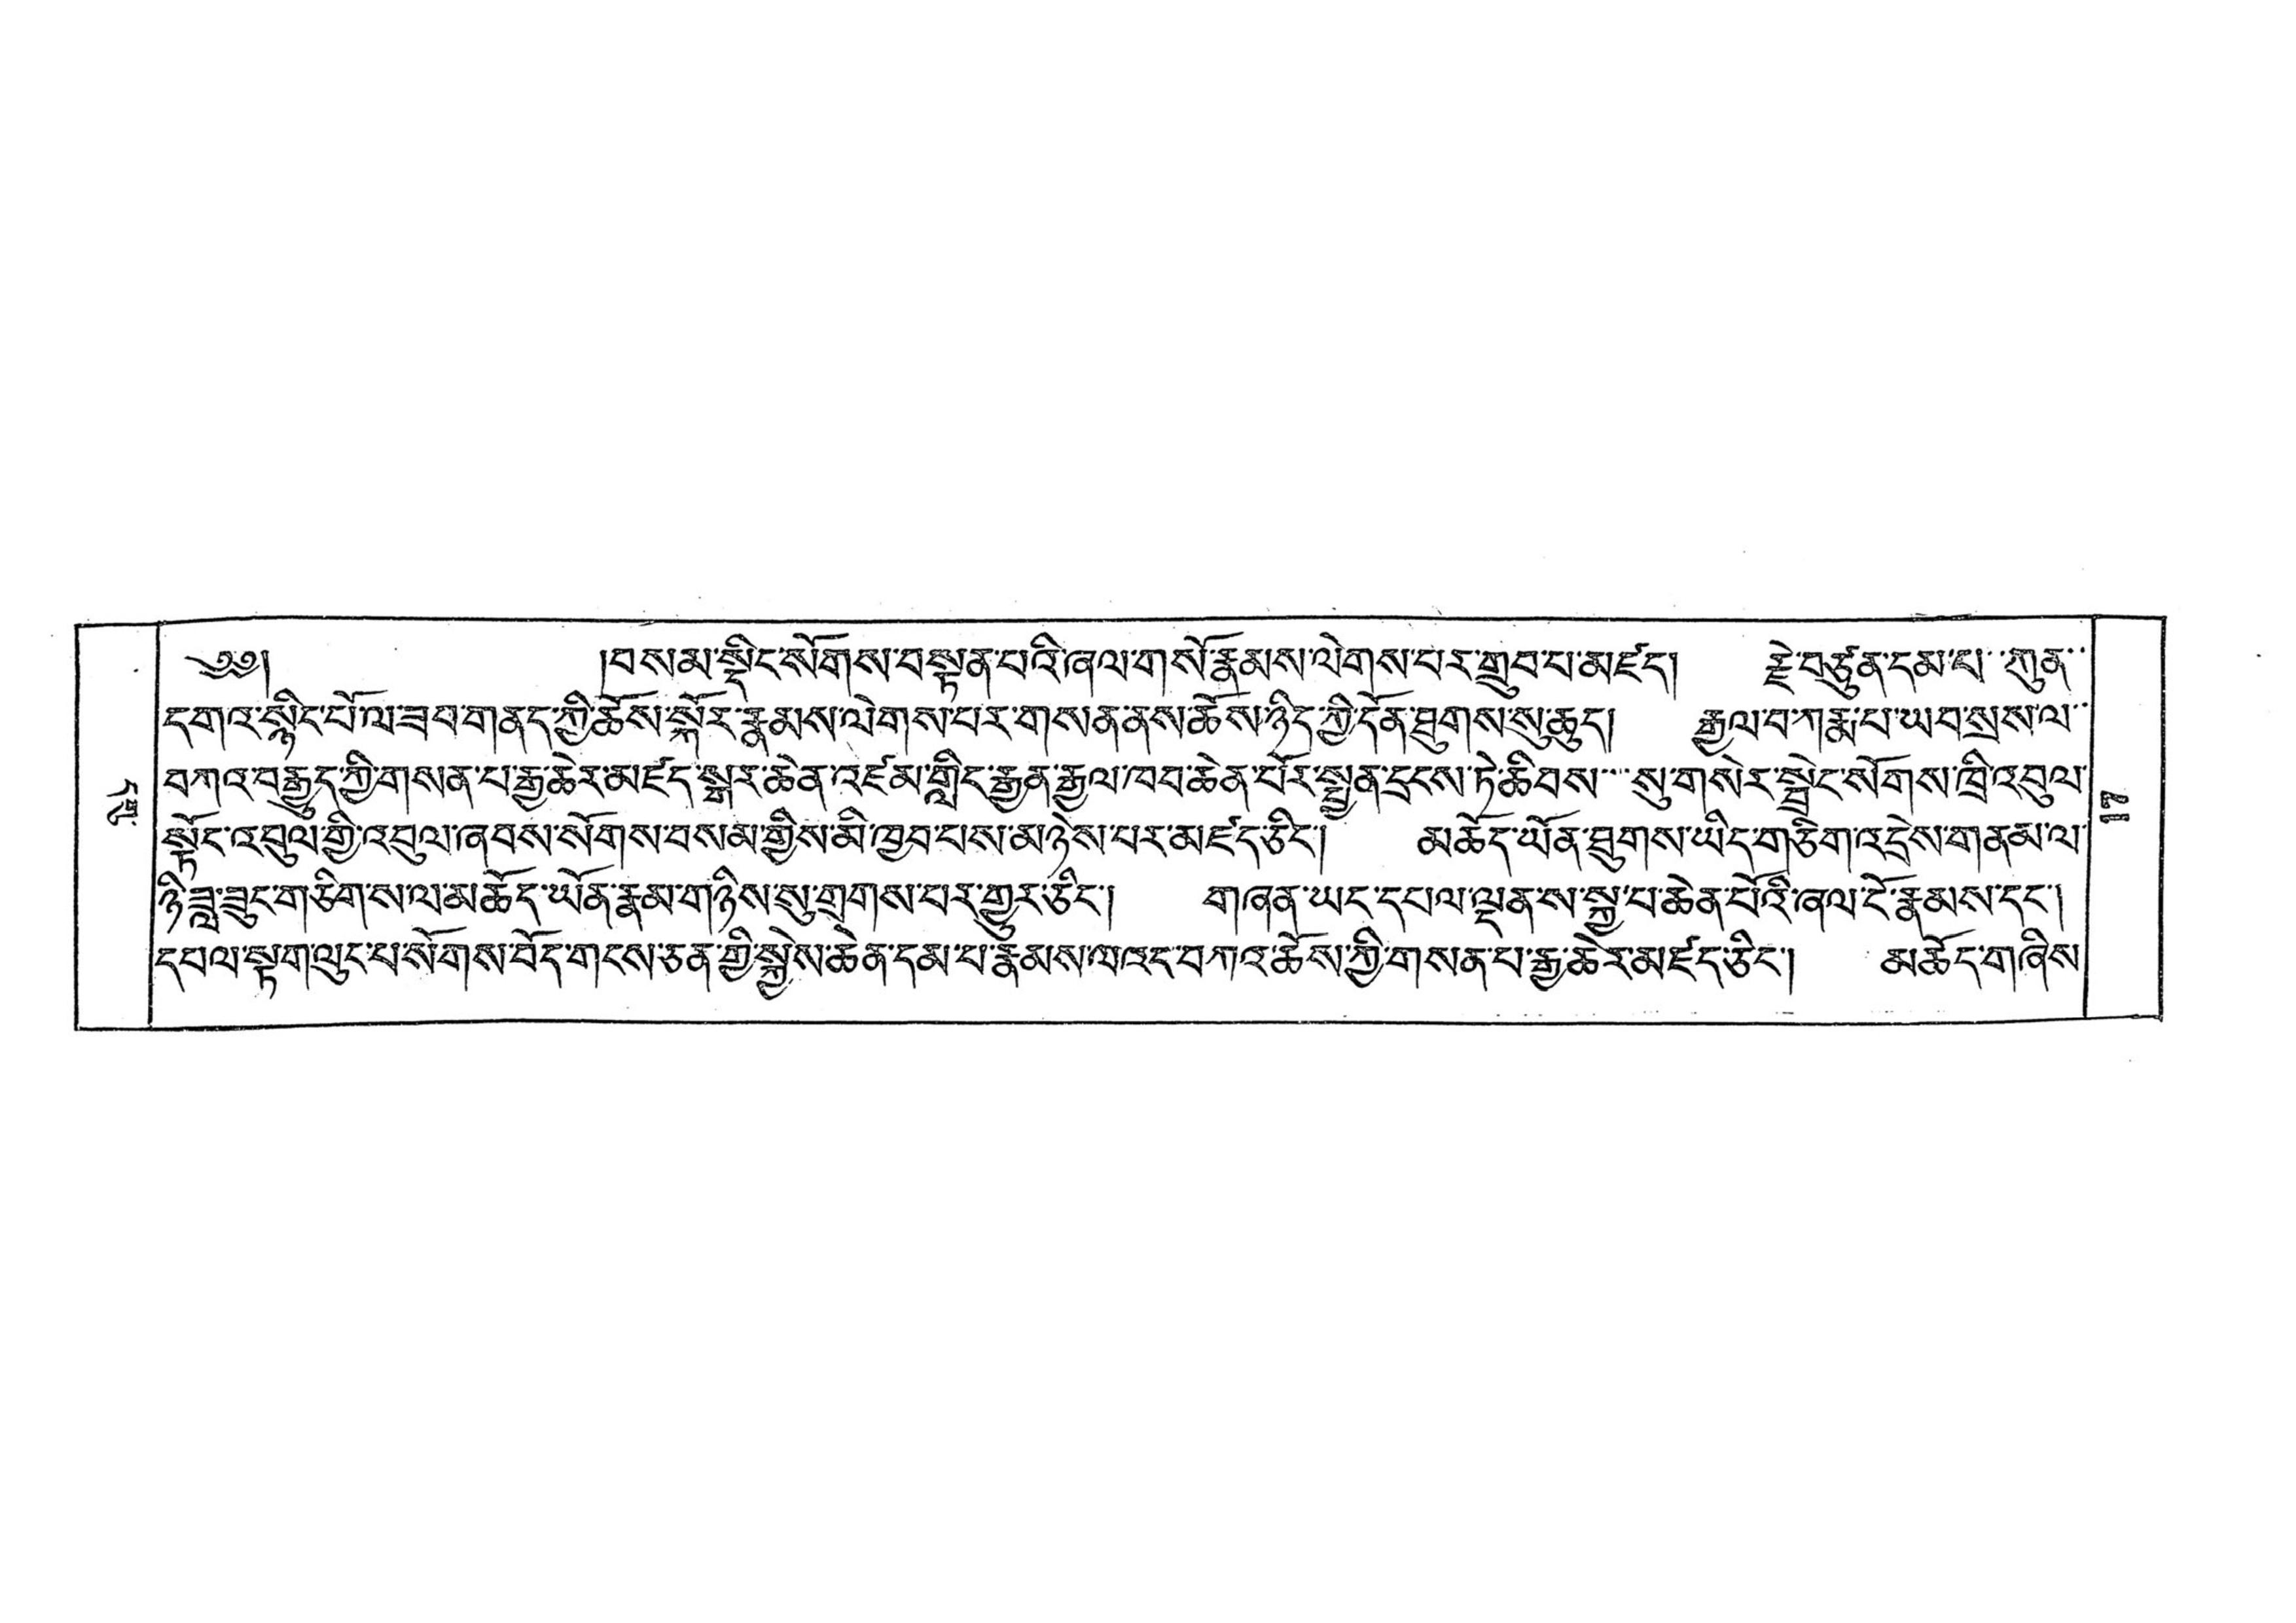དགུ་
བསམ་སྡིང་སོགས་བསྟནཔའི་ཞལ་གསོ་རྣམས་ལེགས་པར་གྲུབ་པ་མཛད། རྗེ་བཙུན་དམ་པ་་ཀུན་་
དགའ་སྙིང་པོ་ལཟབ་གནད་ཀྱི་ཆོས་སྐོར་རྣམས་ལེགས་པར་གསན་ནས་ཆོས་ཉིད་ཀྱི་དོན་ཐུགས་སུ་ཆུད། རྒྱལ་བ་ཀརྨ་པ་ཡབ་སྲས་ལ་་
བཀའ་བརྒྱུད་ཀྱི་གསན་པ་རྒྱ་ཆེར་མཛད་སྒར་ཆེན་འཛམ་གླིང་རྒྱན་རྒྱལ་ཁབ་ཆེན་པོར་སྤྱན་དྲངས་ཏེ་ཆིབས་་་་སུ་གསེར་སྦྲེང་སོགས་ཁྲི་འབུལ་
སྟོང་འབུལ་གྱི་འབུལ་ཞབས་སོགས་བསམ་གྱིས་མི་ཁྱབ་པས་མཉེས་པར་མཛད་ཅིང་། མཆོད་ཡོན་ཐུགས་ཡིད་གཅིག་འདྲེས་གནམ་ལ་
ཉི་ཟླ་ཟུང་གཅིག་ས་ལ་མཆོད་ཡོན་རྣམ་གཉིས་སུ་གྲགས་པར་གྱུར་ཅིང་། གཞན་ཡང་དཔལ་ལྡན་ས་སྐྱ་པ་ཆེན་པོའི་ཞལ་ངོ་རྣམས་དང་།
དཔལ་སྟག་ལུང་པ་སོགས་བོད་གངས་ཅན་གྱི་སྐྱེས་ཆེན་དམ་པ་རྣམས་ལའང་བཀའ་ཆོས་ཀྱི་གསན་པ་རྒྱ་ཆེར་མཛད་ཅིང་། མཆོད་གཞིས
